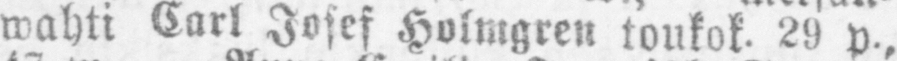wahti Carl Josef Holmgren toukok. 29 p.,
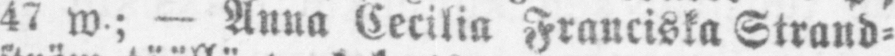47 w.; - Anna Cecilia Franciska Strand-
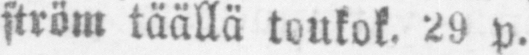str öm täällä toukok. 29 p.
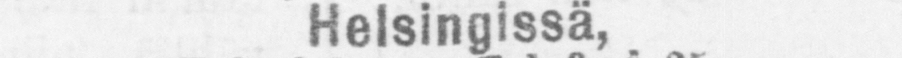Helsingissä,
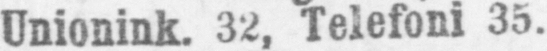Unionink. 32, Telefoni 35.
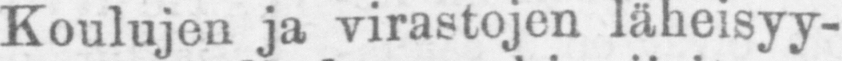Koulujen ja virastojen läheisyy-
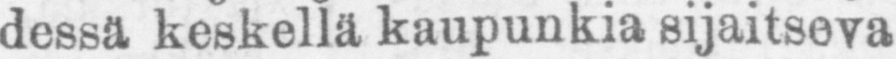dessä keskellä kaupunkia sijaitseva
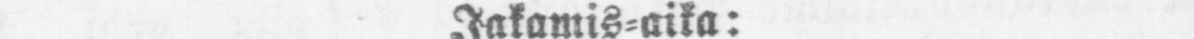Jakamis-aika:
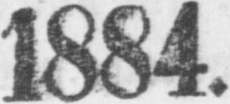1884.
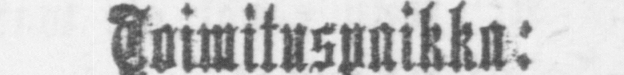Toimituspaikka:
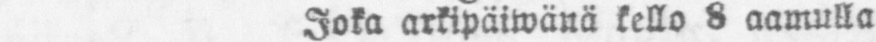Joka arkipäiwänä kello 8 aamulla.
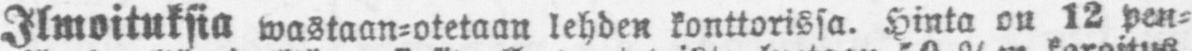Ilmoituksia wastaan-otetaan lehden konttorissa. Hinta on 12 pen-
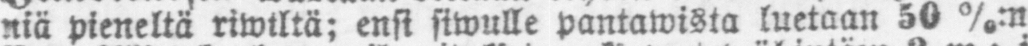niä pieneltä riwiltä; ensi siwulle pantawista luetaan 50 %:n koroitus.
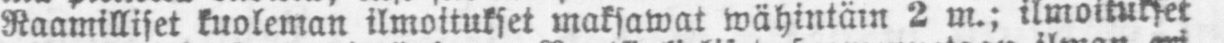Raamilliset kuoleman ilmoitukset maksawat wähintäin 2 m.; ilmoitukset
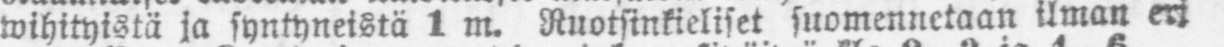wihityistä ja syntyneistä 1 m. Ruotsinkieliset suomennetaan ilman eri
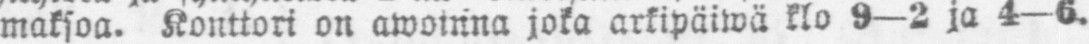maksoa. Konttori on awoinna joka arkipäiwä klo 9—2 ja 4-6.
